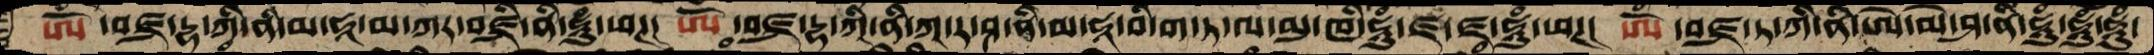ཨོཾ་བཛྲ་དྷ་ཀི་ནི་མ་ཧཱ་མ་ཀར་བཛྲི་ནི་ཧཱུཾ་ཕཊ། ཨོཾ་བཛྲ་དྷ་ཀི་ནི་ཀ་ར་ཤ་ནི་མ་ཧཱ་བི་ག་ཏ་ལ་མུ་ཁི་ཧཱུཾ་ཛ་ཛ་ཧཱུཾ་ཕཊ། ཨོཾ་བཛྲ་ཏ་ཀི་ནི་ཨེ་མེ་ཤ་ནི་ཧཱུཾ་ཧཱུཾ་ཧཱུཾ་
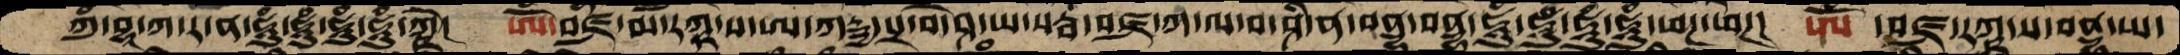ཀུཾ་བྷཱ་ཀ་ར་ན་ཧཱུཾ་ཧཱུཾ་ཧཱུཾ་ཧཱུཾ་ཀྵེ། ཨོཾ་བཛྲ་མོ་རཀྵ་ས་ཨ་ཀརྦྱ་པྲ་བེ་ཤྭ་ཡ་སརྦ་བཛྲ་ཀ་ལ་བ་ཤི་ན་བནྡྷ་ནྡྷ་ཧཱུཾ་ཧཱུཾ་ཧཱུཾ་ཧཱུཾ་ཕཊ་ཕཊ། ཨོཾ་བཛྲ་རཀྵ་ས་བནྡྷ་ཡ་
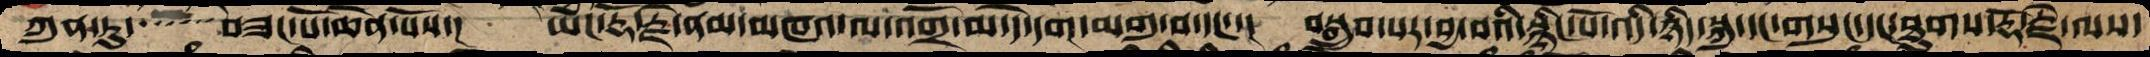ཀུན་ཏུ་་་་་་བཟང་པོ་ཆེན་པོས་། ཡང་རྡོ་རྗེ་ནམ་མཁའ་ལ་འགྲོ་མ་དེ་དག་མགུ་བ་དང་་། བསྒྲུབ་པར་བྱ་བའི་སྙིང་པོ་འདོ་ཉིད་སྐུ་དང་གསུང་དང་ཐུགས་རྡོ་རྗེ་ལས་
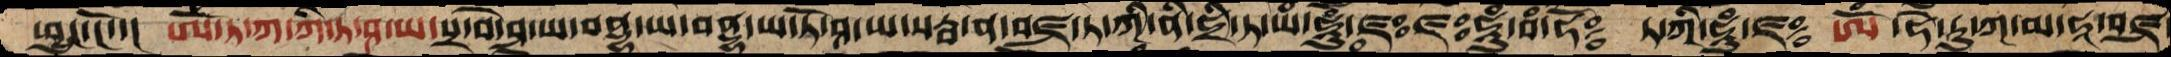ཕྱུང་ངོ་་། ཨོཾ་ཏ་ཀ་ཀི་ཏ་ཤ་ཡ་པྲ་བེ་ཤ་ཡ་བནྡྷ་ཡ་བནྡྷ་ཡ་ཏོ་ཤ་ཡ་སརྦ་ན་བཛྲ་ཏ་ཀི་ནི་ཧྲི་ཏ་ཡཾ་ཧཱུཾ་ཛཿཛཿཧཱུཾ་བཾ་ཧོ༔ ཏ་ཀི་ཧཱུཾ་ཛ༔ ཨོཾ་ཧེ་རུ་ཀ་མ་ཧཱ་བཛྲ
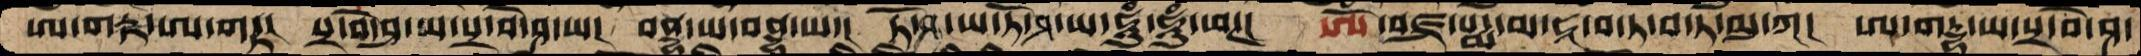ཨ་གརྟ་ཨ་གརྟ། པྲ་བེ་ཤ་ཡ་པྲ་བེ་ཤ་ཡ། བནྡྷ་ཡ་བནྡྷ་ཡ་། ཏོ་ཤ་་ཡ་ཏོ་ཤ་ཡ་ཧཱུཾ་ཧཱུཾ་ཕཊ། ཨོཾ་བཛྲ་པདྨ་མ་ཧཱ་བ་ཏ་བ་ཏོ་མུ་ཀ། ཨ་གརྡྷ་ཡ་པྲ་བེ་ཤ་
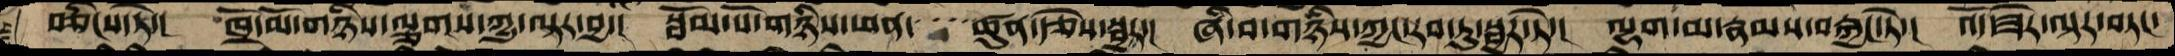བཅིངས་ཏེ་། ཁྲོ་མོ་གཉིས་ལྕགས་ཀྱུ་ལྟར་བྱ་། སྦོམ་པོ་གཉིས་ཕན་་་་ཚུན་རྩེས་སྦྱར་། ཞི་བ་གཉིས་ཀྱང་རབ་ཏུ་སྦྱར་ཏེ་། ལྷག་མ་རྣམས་བརྐྱང་ཏེ་། འོད་ཟེར་ལྟར་བཏང་
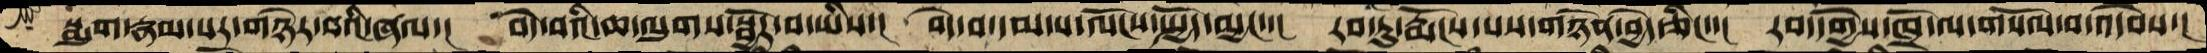སྨུག་རྣམ་པར་གཉེར་བའི་ཞལ་། བདེ་བའི་ཆ་ལུགས་སྦྱོར་བ་ཡིས་། བདེ་བ་དམ་པ་ལོངས་སྤྱོད་མྱང་་། རབ་ཏུ་རྨོངས་པས་གཉེན་བྱེད་ཅིང་་། རབ་དགྱེས་ཁྲོ་ལ་གསོལ་བ་འདེབས་།
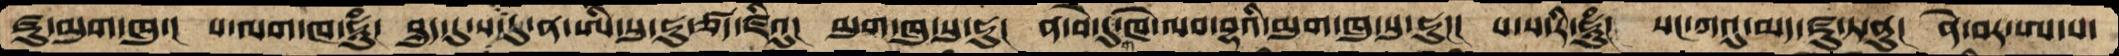ཛུ་མུག་ཁུ་། ས་ལག་ཁ་ཧཱུཾ། བྷུད་དུ་ས་དུ་ན་ཨི་སུ་ཧུ་ཙད་ཛིའུ། མུག་ཁུ་སུ་ཧུ། ན་བེ་དུག་ཁེ་ལབ་བྷའི་མུག་ཁུ་སུ་ཧུ་། ས་ས་རི་ཧཱུཾ། སང་ཀའུ་མད་ཛུ་ཏ་ནུ། ནེ་བར་ཨ་པ་
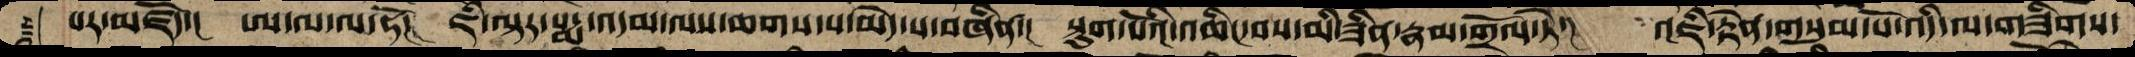པར་མཛོད་། ཨ་ལ་ལ་ཧོ། ཇི་ལྟར་པདྨ་འདམ་ལས་ཆགས་པ་མེད་པ་བཞིན་། སྡུག་པོའི་འཆིང་བས་མི་ཟིན་རྣམ་གྲོལ་ཏེ་། འཇི་རྟེན་གསུམ་པོ་འདི་ལ་གཟིགས་
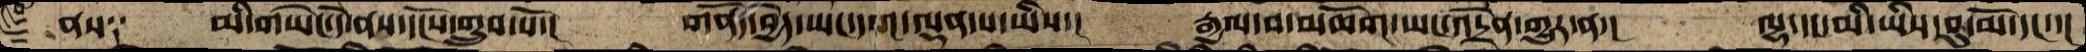ནས༑  མི་གཡེང་དེ་ནས་དངོས་གྲུབ་པོ་།  གནོད་བྱེད་ཡང་དག་ལྡན་པ་ཡིས་།  རྒྱལ་བ་མཆོག་ཡང་འདྲེན་གྱུར་ན་།  ལྷ་དང་མི་ཡིས་བུ་མོ་དང་་།
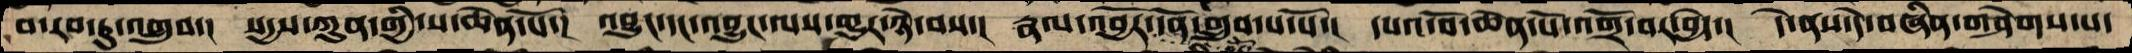བ་རབ་ཏུ་འགྲུབ་། སདྱས་ཀུན་གྱི་ས་ཆེན་པོ་། འབྱུང་དང་འབྱུང་ལས་གྱུར་ཉེ་བས་། རྣལ་འབྱོར་དོན་གྲུབ་པ་སོ་། དཔའ་བོ་ཆེན་པོ་འགྲོ་བར་བྱེད་། དེ་ནས་དེ་བཞིན་གཤེགས་པ་
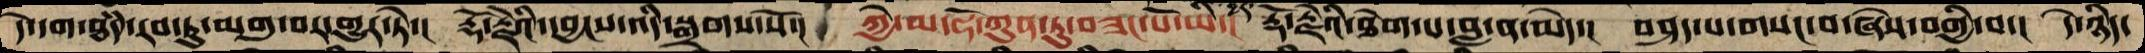དེ་དག་ཐདཾ་རབ་ཏུ་མགུ་བར་གྱུར་ཏེ་། རྡོ་རྗེའི་དབྱངས་འདི་སྒྲགས་སོ་། ཀྱེ་མ་ཧོ་ཀུན་ཏུ་བཟང་པོ་ཡི་། རྡོ་རྗེའི་ཐེག་པ་བླ་ན་མེད་། བཤད་པ་གསང་བ་ཞེས་བགྱི་བ་། དེ་ཉིད་
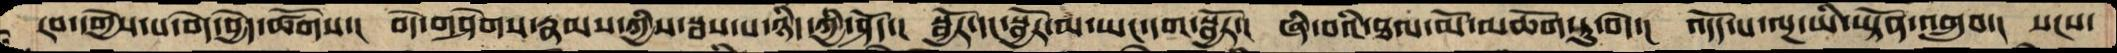རབ་དགྱེས་པ་བདེ་བྱེད་ཚོགས་། བདེ་གཤེགས་རྣམས་ཀྱིས་སྦས་པ་ཉིད་ཀྱི་ཤོད་། སྦྱོར་དང་སྦྱོར་ལ་ཡང་དག་སྦྱོར་། ཞི་བའི་ཐལ་མོ་མཆོག་ཏུ་བདེ་། འདོད་པ་ལྔ་ཡི་ཡྟོན་འགྲུབ་། སངས་
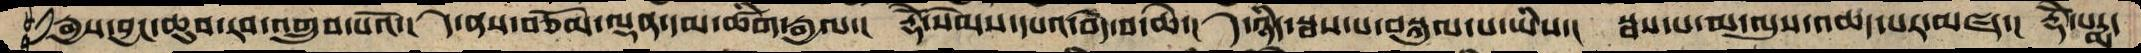རྒྱས་བྱང་ཆུབ་རབ་འགྲུབ་པའོ་། དེ་ནས་བཅོམ་ལྡན་དམ་ཚིག་རྒྱལ་། རྡོེ་སེམས་དཔའ་བདེ་བ་ཆེ་། དེ་ཉིད་སྦས་པ་བསྐུལ་པ་ཡིས་། སྦས་པ་མ་ལུས་འཆད་པར་མཛད་། རྡོེ་པདྨ་
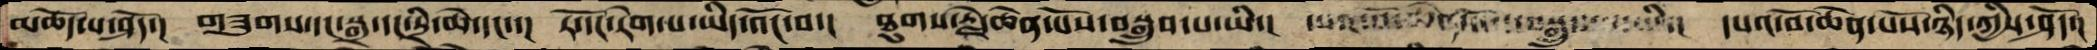མཆོད་པ་ཤོད་། གཟུགས་དང་སྒྲ་དང་དྲི་ཆེ་དང་་། རོ་དང་རེག་པ་ཡིད་འོང་བ་། ཐུགས་རྗེ་ཆེན་པོས་བསྒྲུབ་པ་ཡི་། དཔའ་མོ་ཆེན་པོ་བསྒྲུབ་པ་ཡི་། དཔའ་བོ་ཆེན་པོས་ཉིད་ཀྱིས་ཤོད་།
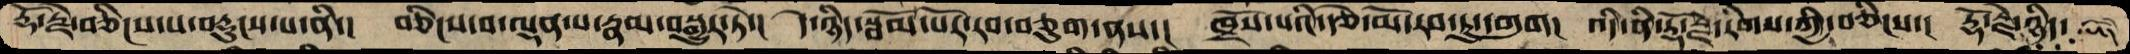རྡོ་རྗེ་བཅིངས་པ་བརྡུངས་པ་ནི་། བཅིངས་བ་ལྡན་པ་རྣམ་བསྒྱུར་ཏེ་། དེ་ཉིད་སྦོམ་པོར་རབ་བཅུག་ནས་། ཁྲོས་པའི་རྩེ་མོ་རབ་ཏུ་དགུག། འདི་ནི་རྡོ་རྗེ་རིགས་ཀྱི་བཅིངས་། རྡོ་རྗེ་ཉིད་ཡིད་
